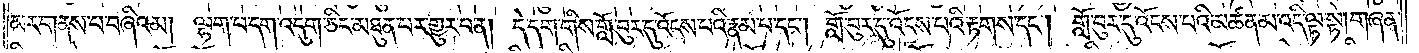མར་གནས་པ་བཞིའམ། ལྷག་པ་དག་འདུག་ཅིང་མཐུན་པར་གྱུར་པ་ན། དེ་དག་གིས་གློ་བུར་དུ་འོངས་པའི་རྣམ་པ་དང༌། གློ་བུར་དུ་འོངས་པའི་རྟགས་དང༌། གློ་བུར་དུ་འོངས་པའི་མཚན་མ་འདི་ལྟ་སྟེ། གཞན་
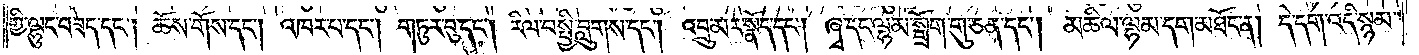གྱི་ལྷུང་བཟེད་དང༌། ཆོས་གོས་དང༌། འཁར་པ་དང༌། གཏུར་བུ་དང༌། རིལ་བ་སྤྱི་བླུགས་དང༌། འབྲུ་མར་སྣོད་དང༌། ཞྭ་དང་ལྷམ་སྒྲོག་གུ་ཅན་དང༌། མཆིལ་ལྷམ་དག་མཐོང་ན། དེ་དག་འདི་སྙམ་
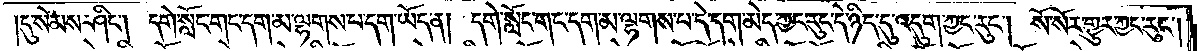དུ་སེམས་ཤིང༌། དགེ་སློང་གང་དག་མ་ལྷགས་པ་དག་ཡོད་ན། དགེ་སློང་གང་དག་མ་ལྷགས་པ་དེ་དག་མེད་ཀྱང་རུང་དེ་ཉིད་དུ་འདུག་ཀྱང་རུང༌། སོ་སོར་གྱུར་ཀྱང་རུང༌།
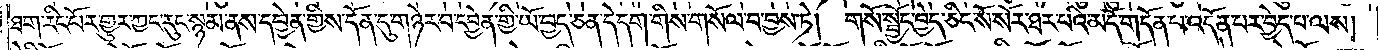ཐག་རིང་པོར་གྱུར་ཀྱང་རུང་སྙམ་ནས་དབྱེན་གྱིས་དོན་དུ་གཉེར་བ་དབྱེན་གྱི་ཡོ་བྱད་ཅན་དེ་དག་གིས་གསོལ་བ་བྱས་ཏེ། གསོ་སྦྱོང་བྱེད་ཅིང་སོ་སོར་ཐར་པའི་མདོ་གདོན་པ་འདོན་པར་བྱེད་པ་ལས།
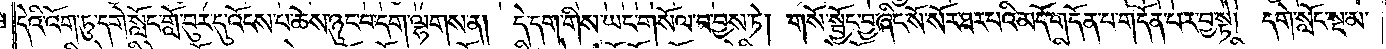དེའི་འོག་ཏུ་དགེ་སློང་གློ་བུར་དུ་འོངས་པ་ཆེས་ཉུང་བ་དག་ལྷགས་ན། དེ་དག་གིས་ཡང་གསོལ་བ་བྱས་ཏེ། གསོ་སྦྱོང་བྱ་ཞིང་སོ་སོར་ཐར་པའི་མདོ་གདོན་པ་གདོན་པར་བྱ་སྟེ། དགེ་སློང་སྔ་མ་
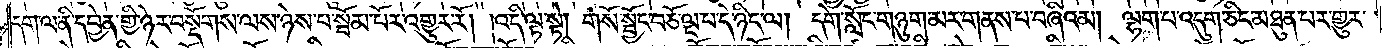དག་ལ་ནི་དབྱེན་གྱི་ཉེར་བསྡོགས་ལས་ཉེས་པ་སྦོམ་པོར་འགྱུར་རོ། །འདི་ལྟ་སྟེ། གསོ་སྦྱོང་བཅོ་ལྔ་པ་དེ་ཉིད་ལ། དགེ་སློང་གཉུག་མར་གནས་པ་བཞིའམ། ལྷག་པ་འདུག་ཅིང་མཐུན་པར་གྱུར་
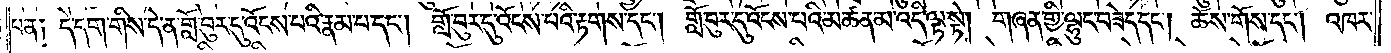པ་ན༑ དེ་དག་གིས་དེ་ན་གློ་བུར་དུ་འོངས་པའི་རྣམ་པ་དང༌། གློ་བུར་དུ་འོངས་པའི་རྟགས་དང༌། གློ་བུར་དུ་འོངས་པའི་མཚན་མ་འདི་ལྟ་སྟེ། གཞན་གྱི་ལྷུང་བཟེད་དང༌། ཆོས་གོས་དང༌། འཁར་
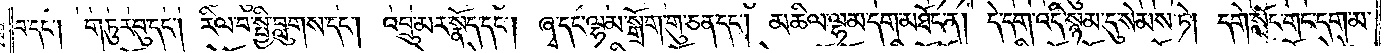བ་དང༌། གཏུར་བུ་དང༌། རིལ་བ་སྤྱི་བླུགས་དང༌། འབྲུ་མར་སྣོད་དང༌། ཞྭ་དང་ལྷམ་སྒྲོག་གུ་ཅན་དང༌། མཆིལ་ལྷམ་དག་མཐོང་ན། དེ་དག་འདི་སྙམ་དུ་སེམས་ཏེ། དགེ་སློང་གང་དག་མ་
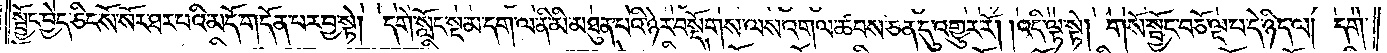སྦྱོང་བྱེད་ཅིང་སོ་སོར་ཐར་པའི་མདོ་གདོན་པར་བྱ་སྟེ། དགེ་སློང་སྔ་མ་དག་ལ་ནི་མི་མཐུན་པའི་ཉེར་བསྡོགས་ལས་འགལ་ཚབས་ཅན་དུ་འགྱུར་རོ། །འདི་ལྟ་སྟེ། གསོ་སྦྱོང་བཅོ་ལྔ་པ་དེ་ཉིད་ལ། དགེ་
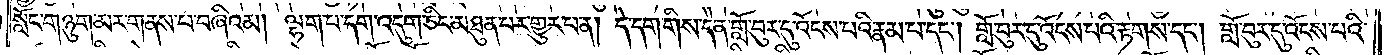སློང་གཉུག་མར་གནས་པ་བཞིའམ། ལྷག་པ་དག་འདུག་ཅིང་མཐུན་པར་གྱུར་པ་ན། དེ་དག་གིས་དེ་ན་གློ་བུར་དུ་འོངས་པའི་རྣམ་པ་དང༌། གློ་བུར་དུ་འོངས་པའི་རྟགས་དང༌། གློ་བུར་དུ་འོངས་པའི་
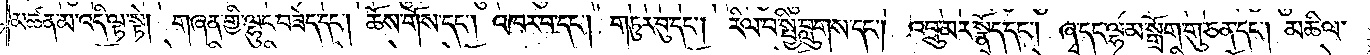མཚན་མ་འདི་ལྟ་སྟེ། གཞན་གྱི་ལྷུང་བཟེད་དང༌། ཆོས་གོས་དང༌། འཁར་བ་དང༌། གཏུར་བུ་དང༌། རིལ་བ་སྤྱི་བླུགས་དང༌། འབྲུ་མར་སྣོད་དང༌། ཞྭ་དང་ལྷམ་སྒྲོག་གུ་ཅན་དང༌། མཆིལ་
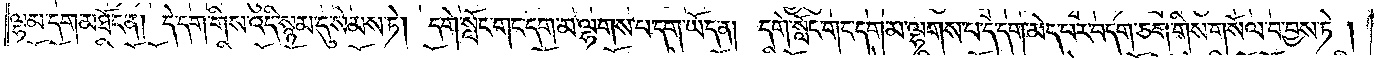ལྷམ་དག་མཐོང་ན། དེ་དག་གིས་འདི་སྙམ་དུ་སེམས་ཏེ། དགེ་སློང་གང་དག་མ་ལྷགས་པ་དག་ཡོད་ན། དགེ་སློང་གང་དག་མ་ལྷགས་པ་དེ་དག་མེད་པར་བདག་ཅག་གིས་གསོལ་བ་བྱས་ཏེ།
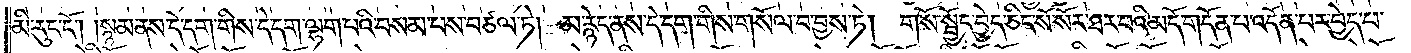མི་རུང་ངོ༌། །སྙམ་ནས་དེ་དག་གིས་དེ་དག་ལྷག་པའི་བསམ་པས་བཙལ་ཏེ། མ་རྙེད་ནས་དེ་དག་གིས་གསོལ་བ་བྱས་ཏེ། གསོ་སྦྱོང་བྱེད་ཅིང་སོ་སོར་ཐར་པའི་མདོ་གདོན་པ་འདོན་པར་བྱེད་པ་
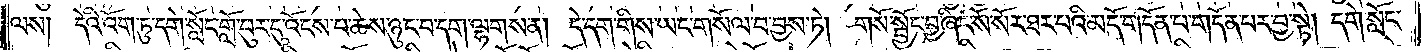ལས། དེའི་འོག་ཏུ་དགེ་སློང་གློ་བུར་དུ་འོངས་པ་ཆེས་ཉུང་བ་དག་ལྷགས་ན། དེ་དག་གིས་ཡང་གསོལ་བ་བྱས་ཏེ། གསོ་སྦྱོང་བྱ་ཞིང་སོ་སོར་ཐར་པའི་མདོ་གདོན་པ་གདོན་པར་བྱ་སྟེ། དགེ་སློང་
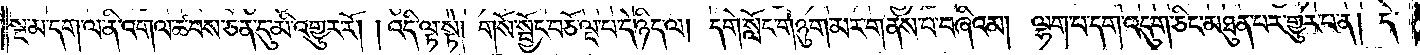སྔ་མ་དག་ལ་ནི་འགལ་ཚབས་ཅན་དུ་མི་འགྱུར་རོ། །འདི་ལྟ་སྟེ། གསོ་སྦྱོང་བཅོ་ལྔ་པ་དེ་ཉིད་ལ། དགེ་སློང་གཉུག་མར་གནས་པ་བཞིའམ། ལྷག་པ་དག་འདུག་ཅིང་མཐུན་པར་གྱུར་པ་ན། དེ་
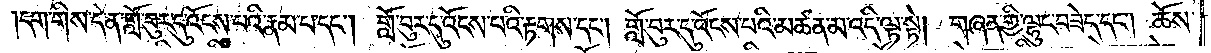དག་གིས་དེ་ན་གློ་བུར་དུ་འོངས་པའི་རྣམ་པ་དང༌། གློ་བུར་དུ་འོངས་པའི་རྟགས་དང༌། གློ་བུར་དུ་འོངས་པའི་མཆན་མ་འདི་ལྟ་སྟེ། གཞན་གྱི་ལྷུང་བཟེད་དང༌། ཆོས་
